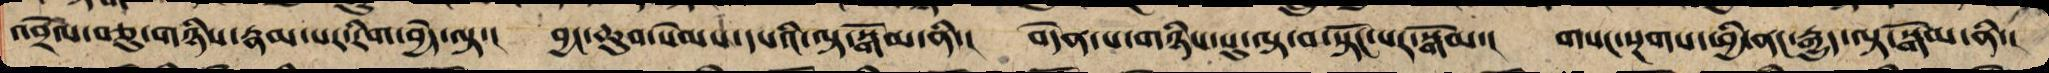འབྲེལ་བཅུ་གཉིས་རྣམ་པར་རིག་བྱེད་ལྟ་། བྱང་ཆུབ་སེམས་དཔའི་ལྟ་སྒོམ་ནི་། བདེན་པ་གཉིས་སུ་ལྟ་བ་སྟོང་པར་སྒོམ་། གསང་སྔགས་ཕྱི་ནང་རྒྱུད་ལྟ་སྒོམ་ནི་།
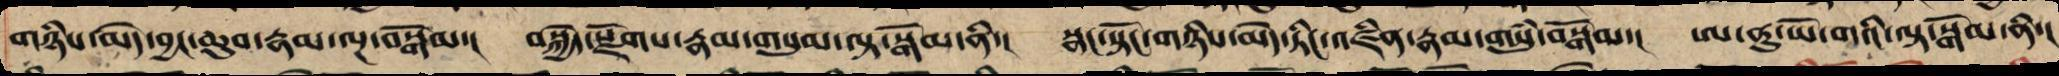གཉིས་མེད་བྱང་ཆུབ་རྣམ་ལྔ་བསྒོམ་། བསྐྱེད་སྫོགས་རྣམ་གསུམ་ལྟ་སྒོམ་ནི་། སྣང་སྟོང་གཉིས་མེད་ཏིང་འཛིན་རྣམ་གསུཾ་བསྒོམ་། ཨ་ནུ་ཡོ་གའི་ལྟ་སྒོམ་ནི་།
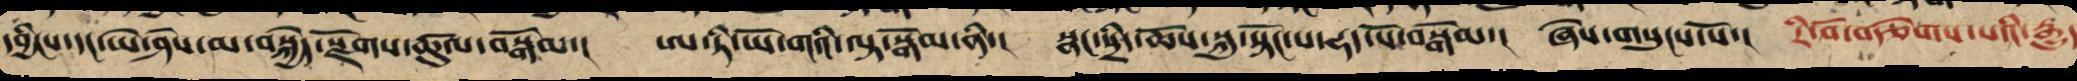དབྱིངས་དང་ཡེ་ཤེས་མ་བསྐྱེད་སྫོགས་ཚུལ་བསྒོམ་། ཨ་ཏི་ཡོ་གའི་ལྟ་སྒོམ་ནི་། སྣང་སྲིད་ཆོས་སྐུ་སྟོང་པ་ཧད་པོར་བསྒོམ་། ཞེས་གསུངས་སོ་། རི་བོ་བརྩེགས་པའི་རྒྱུད
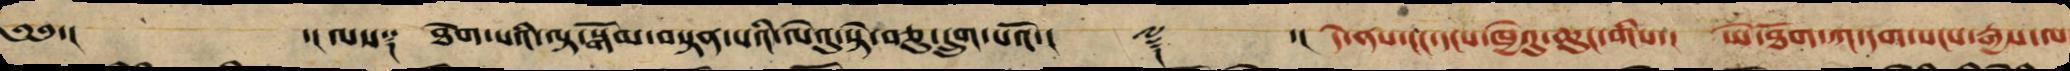༄༅་། ་།ལས༑ ཐེག་པའི་ལྟ་སྒོམ་བསྟན་པའི་ལེའུ་སྟེ་བཅུ་དྲུག་པའོ་།། ༈ ་། དེ་ནས་ངང་དངས་ཁྱེའུ་ཆུང་གིས་། ཡེ་ཐོག་ཀ་དག་སངས་རྒྱས་ལ
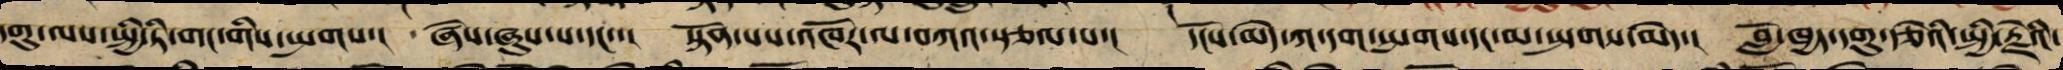དགུ་ལས་སྤྱི་ཏི་གང་གིས་སྤགས་། ཞེས་ཞུས་པ་དང་་། སྟོན་པས་འཁོར་ལ་བཀའ་སྩལ་པ་། དངོས་མེད་ཀ་དག་སྤགས་དང་མ་སྤགས་མེད་། བློ་ཁྱད་དགུ་རྩེའི་སྤྱི་རྗེའི་
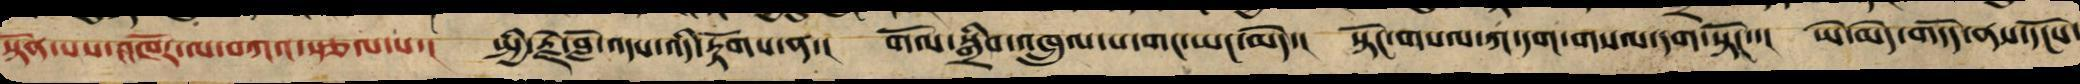སྟོན་པས་འཁོར་ལ་བཀའ་སྩལ་པ་། སྤྱི་རྗེ་བློ་འདས་འདི་རྟོགས་ན་། གོལ་སྒྲིབ་འཁྲུལ་པ་གང་ཡང་མེད་། སྟོང་གསལ་ཀ་དག་གསལ་དག་སྟོང་་། ཡེ་མེད་གདོད་ནས་དངོས་
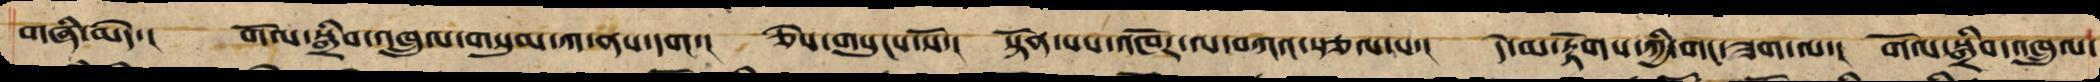གཞི་མེད་། གོལ་སྒྲིབ་འཁྲུལ་གསུམ་ཀ་ནས་དག་། ཅེས་གསུངས་སོ་། སྟོན་པས་འཁོར་ལ་བཀའ་སྩལ་པ་། དེ་མ་རྟོགས་ཀྱི་གང་ཟག་ལ་། གོལ་སྒྲིབ་འཁྲུལ་
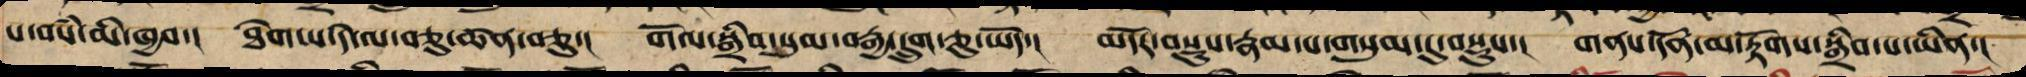པ་བསཾ་མི་ཁྱབ་། ཐེག་པ་རེ་ལ་བཅུ་ཚན་བཅུ་། གོལ་སྒྲིབ་སུམ་བརྒྱ་་དྲུག་ཅུ་ཡོད་། མདོར་བསྡུས་རྣམ་པ་གསུམ་དུ་བསྡུས་། གནས་དོན་མ་རྟོགས་སྒྲིབ་པ་ཡིན་།
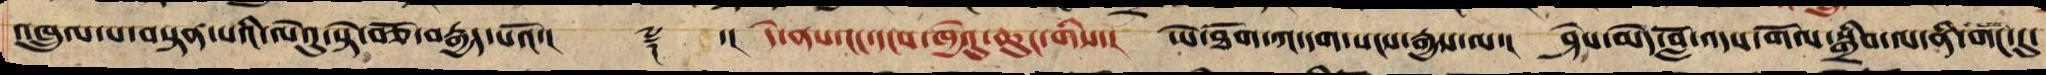འཁྲུལ་པ་བསྟན་པའི་ལེའུ་སྟེ་བཅོ་བརྒྱད་པའོ་།། ༈ ་།། དེ་ནས་ངང་དངས་ཁྱེའུ་ཆུང་གིས་། ཡེ་ཐོག་ཀ་དག་སངས་རྒྱས་ལ་། ཤེས་མེད་བློ་འདས་གོལ་སྒྲིབ་ལ་ནི་གང་དུ་
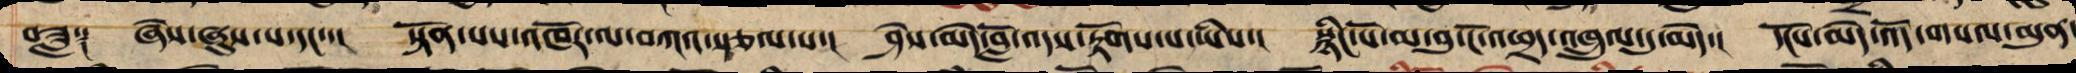བཟླ༑ ཞེས་ཞུས་པ་དང་་། སྟོན་པས་འཁོར་ལ་བཀའ་སྩལ་པ་། ཤེས་མེད་བློ་འདས་རྟོགས་པ་ཡིས་། སྙིང་པོ་མ་བུ་ངོ་འཕྲད་འཁྲུལ་དུ་མེད་། དངོས་མེད་འོད་གསལ་མུན་
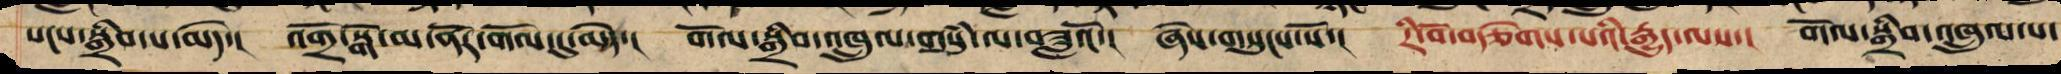སངས་སྒྲིབ་པ་མེ་ད། འགྲོ་སྒོ་མ་ནོར་གོལ་དུ་མེད་། གོལ་སྒྲིབ་འཁྲུལ་གསུཾ་ལ་བཟླའོ་། ཞེས་གསུངས་སོ་། རི་བོ་བརྩེགས་པའི་རྒྱུད་ལས་། གོལ་སྒྲིབ་འཁྲུལ་པ་
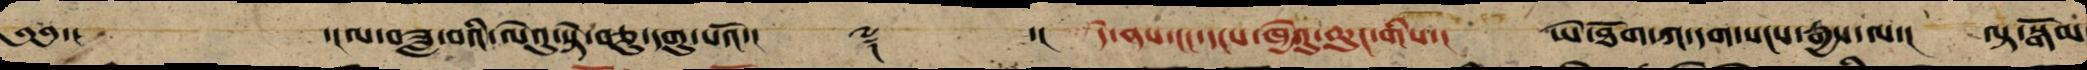༄༅་། ་།ལ་བཟླ་བའི་ལེའུ་སྟེ་བཅུ་དགུ་པའོ་།། ༈ ་།། དེ་ནས་ངང་དངས་ཁྱེའུ་ཆུང་གིས་། ཡེ་ཐོག་ཀ་དག་སངས་རྒྱས་ལ་། ལྟ་སྒོམ་
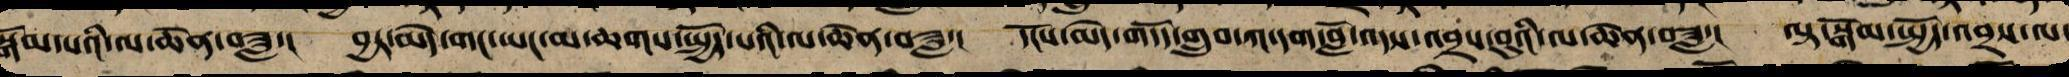སྒོམ་པའི་ལ་ཆེན་བཟླ་། བྱར་མེད་གང་ཡང་མ་ཆགས་སྤྱོད་པའི་ལ་ཆེན་བཟླ་། དངོས་མེད་གདོད་གྲུབ་ཀ་དག་བློ་འདས་འབྲས་བུའི་ལ་ཆེན་བཟླ་། ལྟ་སྒོམ་སྤྱོད་འབྲས་ལ་
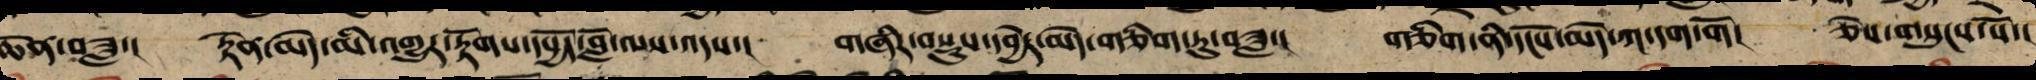ཆེན་བཟླ་། རྟེན་མེད་མི་འགྱུར་རྟོགས་དཔྱོད་བློ་ལས་འདས་། གཞིར་བསྡུས་དབྱེར་མེད་གཅིག་ཏུ་བཟླ་། གཅིག་ནི་དངོས་མེད་ཀ་དག་གོ། ཅེས་གསུངས་སོ་།
